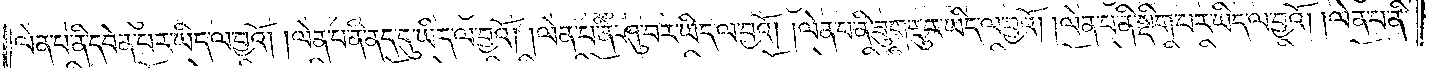ལེན་པ་ནི་དབེན་པར་ཡིད་ལ་བྱའོ། །ལེན་པ་ནི་ནད་དུ་ཡིད་ལ་བྱའོ། །ལེན་པ་ནི་ཤུ་བར་ཡིད་ལ་བྱའོ། །ལེན་པ་ནི་ཟུག་རྔུར་ཡིད་ལ་བྱའོ། །ལེན་པ་ནི་སྡིག་པར་ཡིད་ལ་བྱའོ། །ལེན་པ་ནི་
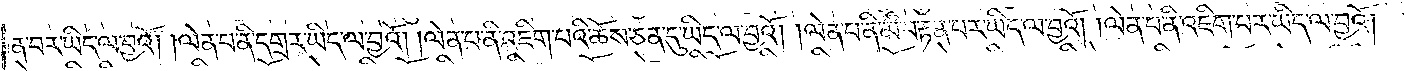ན་བར་ཡིད་ལ་བྱའོ། །ལེན་པ་ནི་དགྲར་ཡིད་ལ་བྱའོ། །ལེན་པ་ནི་འཇིག་པའི་ཆོས་ཅན་དུ་ཡིད་ལ་བྱའོ། །ལེན་པ་ནི་མི་བརྟན་པར་ཡིད་ལ་བྱའོ། །ལེན་པ་ནི་འཇིག་པར་ཡིད་ལ་བྱའོ། །
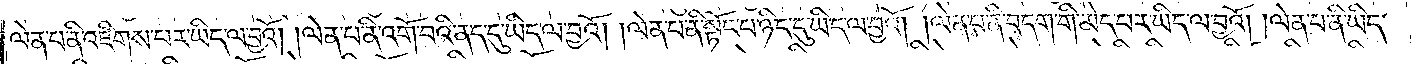ལེན་པ་ནི་འཇིགས་པར་ཡིད་ལ་བྱའོ། །ལེན་པ་ནི་འགོ་བའི་ནད་དུ་ཡིད་ལ་བྱའོ། །ལེན་པ་ནི་སྟོང་པ་ཉིད་དུ་ཡིད་ལ་བྱའོ། །ལེན་པ་ནི་བདག་གི་མེད་པར་ཡིད་ལ་བྱའོ། །ལེན་པ་ནི་ཡིད་
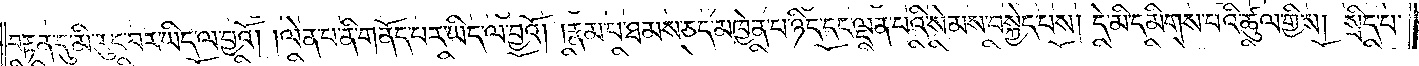བརྟན་དུ་མི་རུང་བར་ཡིད་ལ་བྱའོ། །ལེན་པ་ནི་གནོད་པར་ཡིད་ལ་བྱའོ། །རྣམ་པ་ཐམས་ཅད་མཁྱེན་པ་ཉིད་དང་ལྡན་པའི་སེམས་བསྐྱེད་པས། དེ་མི་དམིགས་པའི་ཚུལ་གྱིས། སྲིད་པ་
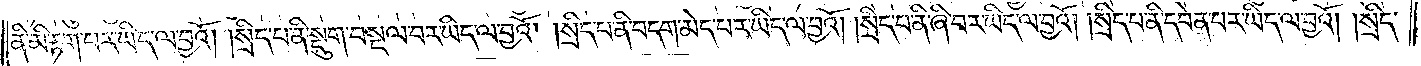ནི་མི་རྟག་པར་ཡིད་ལ་བྱའོ། །སྲིད་པ་ནི་སྡུག་བསྔལ་བར་ཡིད་ལ་བྱའོ། །སྲིད་པ་ནི་བདག་མེད་པར་ཡིད་ལ་བྱའོ། །སྲིད་པ་ནི་ཞི་བར་ཡིད་ལ་བྱའོ། །སྲིད་པ་ནི་དབེན་པར་ཡིད་ལ་བྱའོ། །སྲིད་
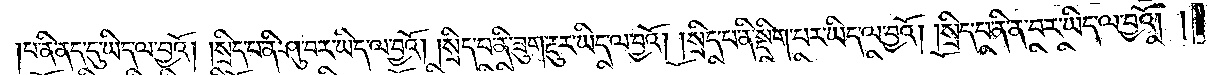པ་ནི་ནད་དུ་ཡིད་ལ་བྱའོ། །སྲིད་པ་ནི་ཤུ་བར་ཡིད་ལ་བྱའོ། །སྲིད་པ་ནི་ཟུག་རྔུར་ཡིད་ལ་བྱའོ། །སྲིད་པ་ནི་སྡིག་པར་ཡིད་ལ་བྱའོ། །སྲིད་པ་ནི་ན་བར་ཡིད་ལ་བྱའོ། །
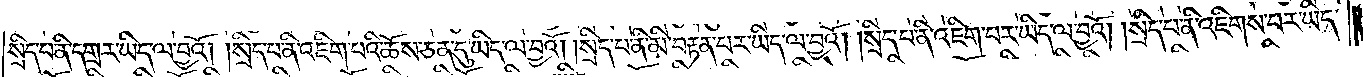སྲིད་པ་ནི་དགྲར་ཡིད་ལ་བྱའོ། །སྲིད་པ་ནི་འཇིག་པའི་ཆོས་ཅན་དུ་ཡིད་ལ་བྱའོ། །སྲིད་པ་ནི་མི་བརྟན་པར་ཡིད་ལ་བྱའོ། །སྲིད་པ་ནི་འཇིག་པར་ཡིད་ལ་བྱའོ། །སྲིད་པ་ནི་འཇིགས་པར་ཡིད་
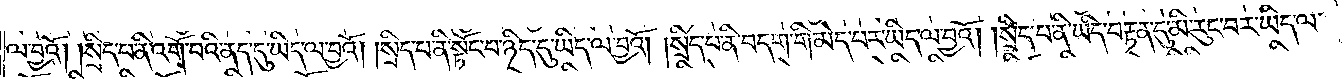ལ་བྱའོ། །སྲིད་པ་ནི་འགོ་བའི་ནད་དུ་ཡིད་ལ་བྱའོ། །སྲིད་པ་ནི་སྟོང་པ་ཉིད་དུ་ཡིད་ལ་བྱའོ། །སྲིད་པ་ནི་བདག་གི་མེད་པར་ཡིད་ལ་བྱའོ། །སྲིད་པ་ནི་ཡིད་བརྟན་དུ་མི་རུང་བར་ཡིད་ལ་
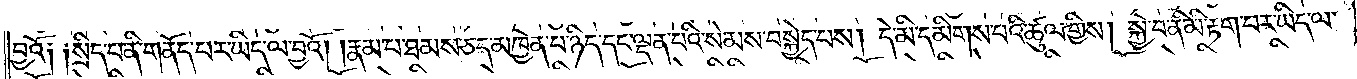བྱའོ༏ ༏སྲིད་པ་ནི་གནོད་པར་ཡིད་ལ་བྱའོ། །རྣམ་པ་ཐམས་ཅད་མཁྱེན་པ་ཉིད་དང་ལྡན་པའི་སེམས་བསྐྱེད་པས། དེ་མི་དམིགས་པའི་ཚུལ་གྱིས། སྐྱེ་བ་ནི་མི་རྟག་པར་ཡིད་ལ་
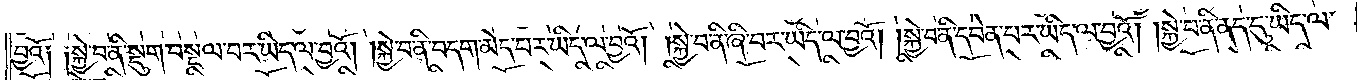བྱའོ༏ ༏སྐྱེ་བ་ནི་སྡུག་བསྔལ་བར་ཡིད་ལ་བྱའོ། །སྐྱེ་བ་ནི་བདག་མེད་པར་ཡིད་ལ་བྱའོ། །སྐྱེ་བ་ནི་ཞི་བར་ཡིད་ལ་བྱའོ། །སྐྱེ་བ་ནི་དབེན་པར་ཡིད་ལ་བྱའོ། །སྐྱེ་བ་ནི་ནད་དུ་ཡིད་ལ་
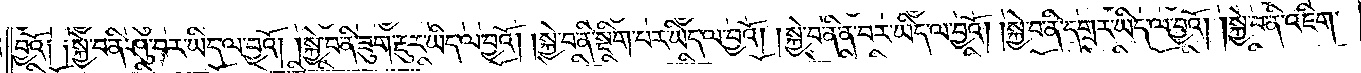བྱའོ༏ ༏སྐྱེ་བ་ནི་ཤུ་བར་ཡིད་ལ་བྱའོ། །སྐྱེ་བ་ནི་ཟུག་རྔུར་ཡིད་ལ་བྱའོ། །སྐྱེ་བ་ནི་སྡིག་པར་ཡིད་ལ་བྱའོ། །སྐྱེ་བ་ནི་ན་བར་ཡིད་ལ་བྱའོ། །སྐྱེ་བ་ནི་དགྲར་ཡིད་ལ་བྱའོ། །སྐྱེ་བ་ནི་འཇིག་
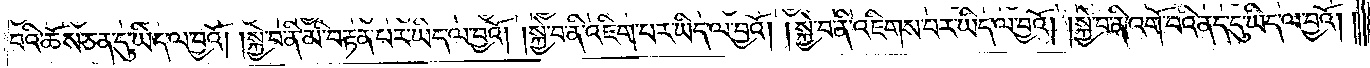པའི་ཆོས་ཅན་དུ་ཡིད་ལ་བྱའོ། །སྐྱེ་བ་ནི་མི་བརྟན་པར་ཡིད་ལ་བྱའོ། །སྐྱེ་བ་ནི་འཇིག་པར་ཡིད་ལ་བྱའོ། །སྐྱེ་བ་ནི་འཇིགས་པར་ཡིད་ལ་བྱའོ། །སྐྱེ་བ་ནི་འགོ་བའི་ནད་དུ་ཡིད་ལ་བྱའོ། །
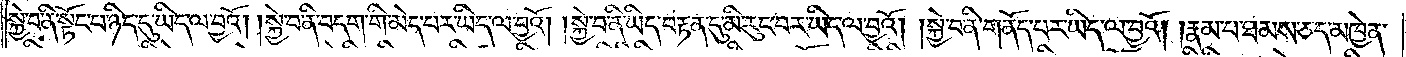སྐྱེ་བ་ནི་སྟོང་པ་ཉིད་དུ་ཡིད་ལ་བྱའོ། །སྐྱེ་བ་ནི་བདག་གི་མེད་པར་ཡིད་ལ་བྱའོ། །སྐྱེ་བ་ནི་ཡིད་བརྟན་དུ་མི་རུང་བར་ཡིད་ལ་བྱའོ། །སྐྱེ་བ་ནི་གནོད་པར་ཡིད་ལ་བྱའོ། །རྣམ་པ་ཐམས་ཅད་མཁྱེན་
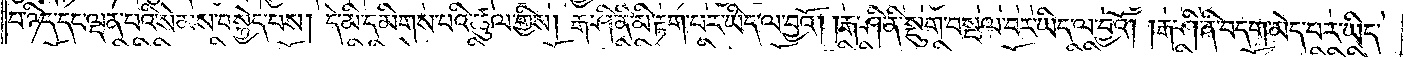པ་ཉིད་དང་ལྡན་པའི་སེམས་བསྐྱེད་པས། དེ་མི་དམིགས་པའི་ཚུལ་གྱིས། རྒ་ཤི་ནི་མི་རྟག་པར་ཡིད་ལ་བྱའོ། །རྒ་ཤི་ནི་སྡུག་བསྔལ་བར་ཡིད་ལ་བྱའོ། །རྒ་ཤི་ནི་བདག་མེད་པར་ཡིད་
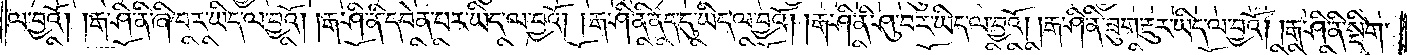ལ་བྱའོ། །རྒ་ཤི་ནི་ཞི་བར་ཡིད་ལ་བྱའོ། །རྒ་ཤི་ནི་དབེན་པར་ཡིད་ལ་བྱའོ། །རྒ་ཤི་ནི་ནད་དུ་ཡིད་ལ་བྱའོ། །རྒ་ཤི་ནི་ཤུ་བར་ཡིད་ལ་བྱའོ། །རྒ་ཤི་ནི་ཟུག་རྔུར་ཡིད་ལ་བྱའོ། །རྒ་ཤི་ནི་སྡིག་
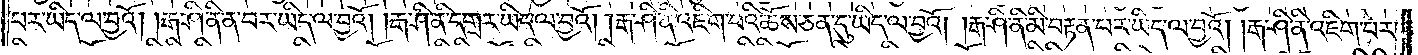པར་ཡིད་ལ་བྱའོ། །རྒ་ཤི་ན་ནི་བར་ཡིད་ལ་བྱའོ། །རྒ་ཤི་ནི་དགྲར་ཡིད་ལ་བྱའོ། །རྒ་ཤི་ནི་འཇིག་པའི་ཆོས་ཅན་དུ་ཡིད་ལ་བྱའོ། །རྒ་ཤི་ནི་མི་བརྟན་པར་ཡིད་ལ་བྱའོ། །རྒ་ཤི་ནི་འཇིག་པར་
